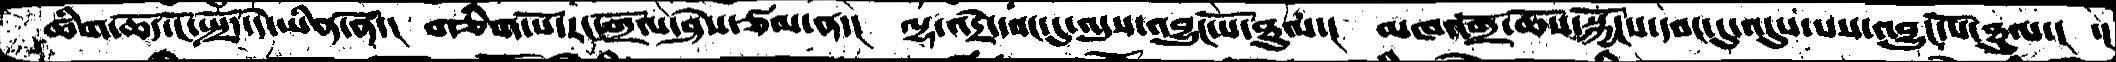ཚིག་ཆོད་ངོ་སྤྲོད་དེ་ཡིན་ནོ་།  གཅིག་པོ་རང་གྲོལ་ཤེས་ཙམ་ན་།  ལྷ་འདྲེ་དབང་དུ་འདུས་འབྱུང་པོ་ཐུལ་།  མཁའ་འགྲོ་ཆོས་སྐྱོངས་དབང་དུ་འདུས་པས་འབྱུང་པོ་ཐུལ་།  ་།
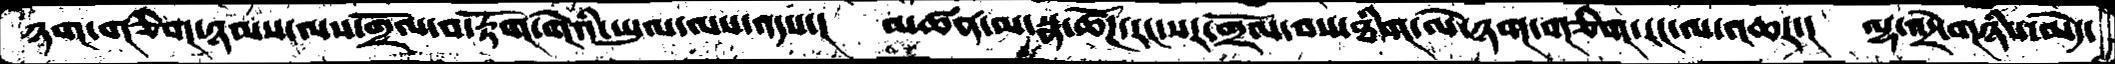ཉག་གཅིག་ཉམས་ལས་གྲོལ་བ་རྟོག་གེའི་ཡུལ་ལས་འདས་།  མཚན་མ་སྣ་ཚོཌ་རང་སར་གྲོལ་བས་ཐིག་ལེ་ཉག་གཅིག་རང་ལ་འཆར་།  ལྷ་འདྲེ་གཉིས་མེད་
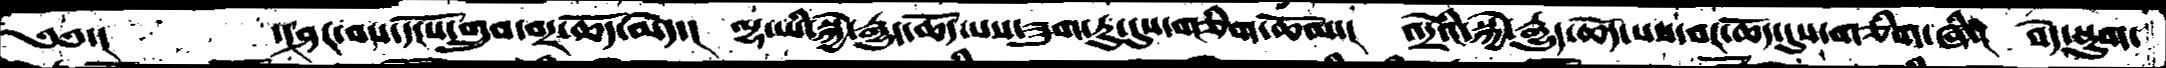༄༅་།     ་།ཤར་བས་དངོས་གྲུབ་བར་ཆོད་མེད་།  ལྷ་ཡི་སྐྱེ་རྒྱུད་ཆོད་པས་ཟུག་རུ་དུས་གཅིག་ཆོམ་།  འདྲེའི་སྐྱེ་རྒྱུད་ཆོད་པས་བར་ཆོད་དུས་གཅིག་ཞི་།  བདེ་སྡུག་
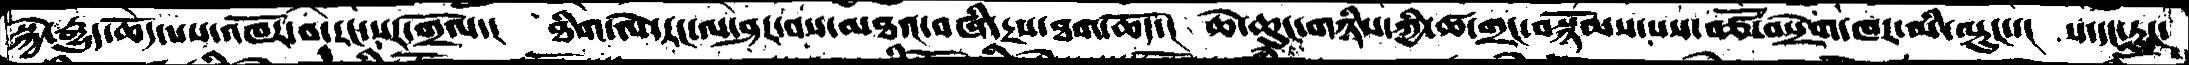སྐྱེ་རྒྱུད་ཆོད་པས་འཁོར་བ་རང་སར་གྲོལ་།  ཐིག་ལེ་རང་ལ་ཤར་བས་མཐའ་བཞི་རས་ཐག་ཆོད་།  ཆེ་ཆུང་གཉིས་ཀྱི་ཚ་གྲང་བསྙོམས་པས་བཙོ་བསྲེག་ཁར་མི་ལྟུང་།  ས་དང་རླུང་
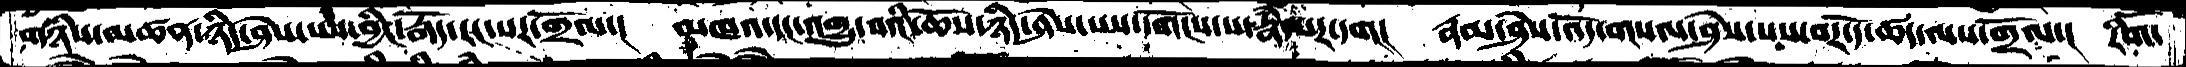གཉིས་མཚན་ཉིད་ཤེས་པས་བྱིང་རྒོད་རང་སར་གྲོལ་།  མཁའ་དང་འགྱུ་བའི་ཆོས་ཉིད་ཤེས་པས་དགོངས་པ་རྣཾ་པར་དག།  རྣམ་ཤེས་འོད་གསལ་ཤེས་པས་བར་དོ་ཚད་ལས་གྲོལ་།  རིག་
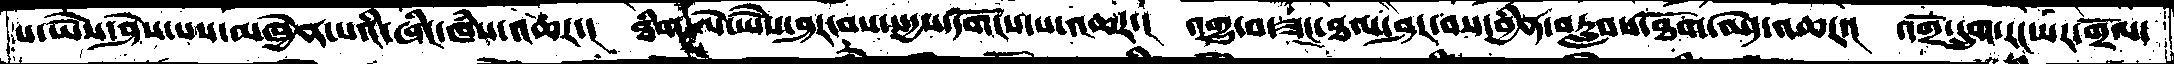པ་ཡཻས་ཤེས་པས་མཁྱེན་པའི་ཞིང་ཁཾས་འཆར་།  ཐིག་ལེ་ཡཻས་ཤར་བས་སདྱས་དགོངས་པ་འཆར་།  འགྱུ་བ་ཟང་ཐལ་ཤར་བས་བྱིན་བརླབས་ཐོག་མེད་འཆར་།  འགྲོ་དྲུག་རང་སར་གྲོལ་
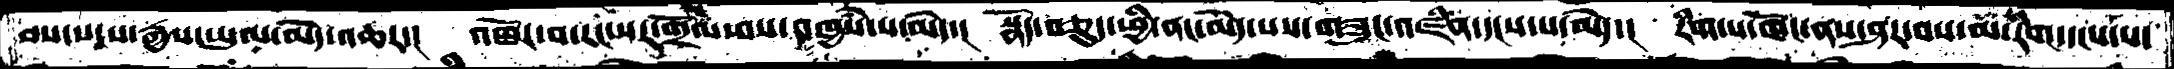བས་སངས་རྒྱས་ཡུལ་མེད་འཆར་།  འཁོར་བ་རང་སར་གྲོལ་བས་འཁྱཾས་པ་མེད་།  སྣོད་བཅུད་ཕྱི་ནང་མེད་པས་གཟུང་འཛིན་དངས་པ་མེད་།   རིག་པ་ཁོང་ནས་ཤར་བས་མ་རིག་དངས་པ་
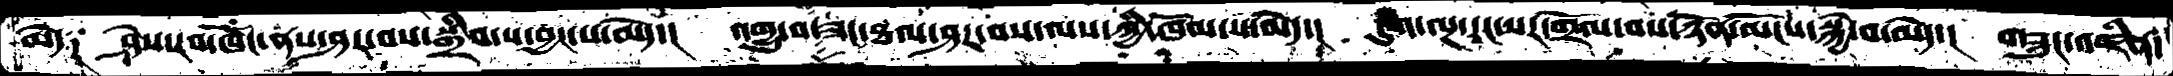མེད༑ ཤེས་རབ་ཁོང་ནས་ཤར་བས་སྒྲིབ་པ་བྱང་པ་མེད་།  འགྱུ་བ་ཟང་ཐལ་ཤར་བས་ལས་ཀྱི་ཁོམ་པ་མེད་།  དུག་ལྔ་རང་སར་གྲོལ་བས་ཉོན་མོངས་སྐྱེ་བ་མེད་།  གཟུང་འཛིན་
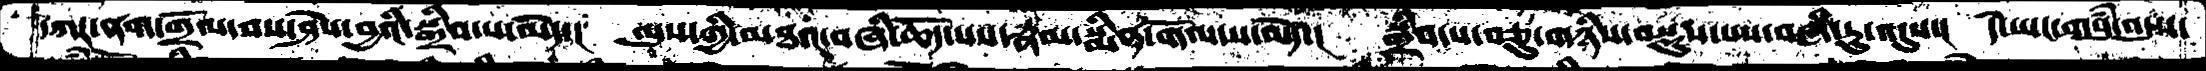དཀར་ནག་གྲོལ་བས་ཤེས་བྱའི་སྒྲིབ་པ་མེད་།  ལུས་གྱི་མཐའ་བཞི་ཆོད་པས་རྣམ་སྨིན་གོལ་ས་མེད་།  སྒྲིབ་པ་བཅུ་གཉིས་བསྡུས་པས་བཞི་རུ་འདུས་།  དེ་ཡང་གསུཾ་འདུས་
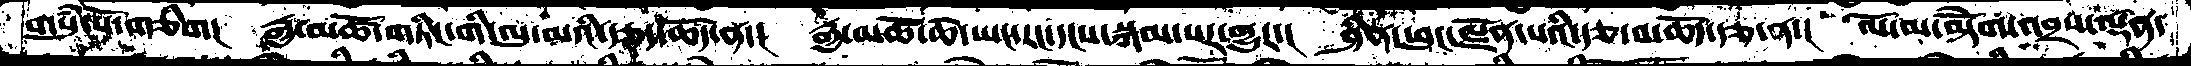གསུཾ་པོ་གཅིག།  རྒྱ་མཚོ་གཏིང་གི་ལུ་མའི་རྩད་ཆོད་ན་།  རྒྱ་མཚོ་ཆེ་ཡང་རང་དངས་སྐམ་པར་གྱུར་།  ཤིན་ཕུང་ལྗོན་པའི་རྩ་བ་ཆོད་རྩ་ན་།  ལོ་མ་མྟེོག་འབྲས་ལྡན་
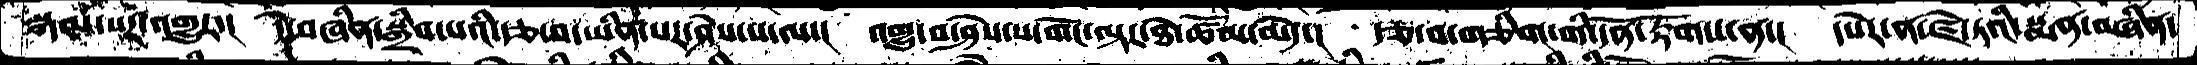སྐམ་པར་འགྱུར་།  དེ་བཞིན་སྒྲིབ་པའི་རྩ་བ་ཡིན་པར་ཤེས་པ་ལ་།   འགྱུ་བ་ཤེས་པ་གོང་ལྟར་ཐེ་ཚོམ་མེད་།  རྩ་བ་གཅིག་གི་དོན་རྟོགས་ན་།   དཔེར་ན་ཛེ་ཏའི་སྨན་བཞིན་
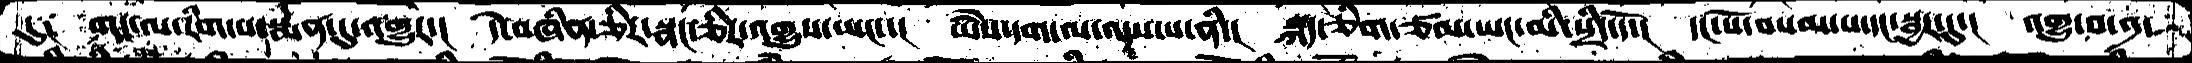དུ༑  གང་ལ་རིག་པ་སྨན་དུ་འགྱུར་།  དེ་བཞིན་ཅིར་སྣང་ཅིར་འགྱུས་ཡང་་།  ཡཻས་དག་ལ་ལྔས་པ་ནི་།  སྐད་ཅིག་ཙམ་ཡང་མི་སྲིད་དོ་།   དང་པོ་བསམ་པ་དང་སྦྱར་དུ་།  འགྱུ་བ་༡་
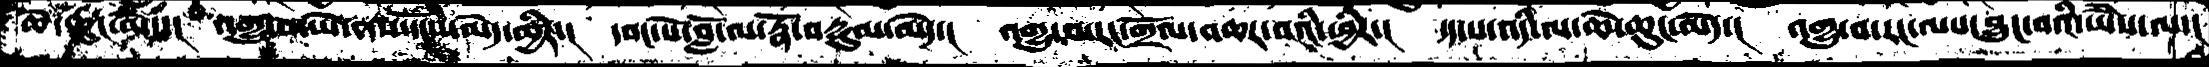ཆེ་ཆུང་མེད་།  འགྱུ་བ་ཡེ་ནས་དངོས་མེད་ཕྱིར་།  དབང་པོ་བློ་ལ་རྣོ་བརྡུལ་མེད་།  འགྱུ་བ་རང་གྲོལ་འཆར་བའི་ཕྱིར་།  དད་པ་འདི་ལ་ཆེ་ཆུང་མེད་།  འགྱུ་བ་རང་ལས་བྱུང་བའི་ཡཻས་ལ་།
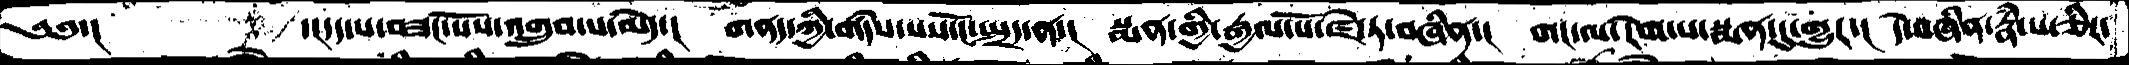༄༅་།        ་།དད་པ་བཟང་པོས་འགྲུབ་པ་མེད་།  གནད་ཀྱི་གདཾས་པས་ངོ་སྤྲད་ན་།  སྨན་གྱི་རྒྱལ་པོ་ཛེ་ཏ་བཞིན་།  གང་ལ་རེག་པ་སྨན་དུ་གྱུར་།  དེ་བཞིན་རྣཾ་པ་ཅིར་
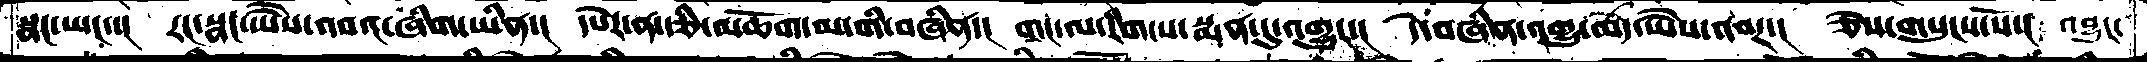སྣང་ཡང་་།  རང་སྣང་ཡཻས་འབའ་ཞིག་ཡིན་།  དཔེར་ན་ཅི་མཆོག་མ་གི་བཞིན་།  གང་ལ་རིག་པ་སྨན་དུ་འགྱུར་།  དེ་བཞིན་འགྱུ་མེད་ཡཻས་འབར་།  ཅེས་གསུངས་སོ་།  འབྱུང་
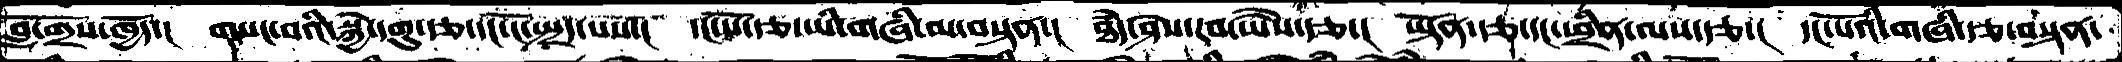བློ་གྲོས་ཁྱོད་།  གསང་བའི་སྐྱེ་དགུ་རྩ་དང་ངོ་སྤྲད་པས་།  དང་པོ་རྩ་ཡི་གཞི་མ་བསྟན་།  ཐདཾ་ཤེས་རབ་ཡཻས་རྩ་།  ཡྟོན་རྩ་དང་ཕྲིན་ལས་རྩ་།  དང་པོའི་གཞི་རྩ་བསྟན་
